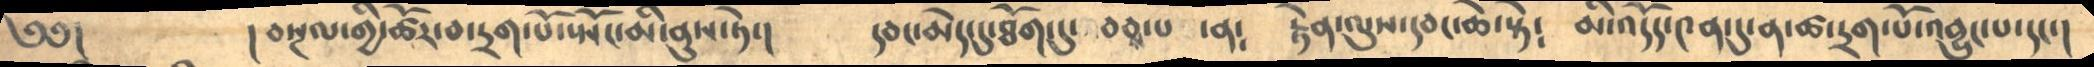༄༅།     ། བསྔལ་གྱི་ཚོར་བ་དྲག་པོ་སྤོང་མི་ནུས་ཏེ་།  དབང་མེད་དུ་ཐོག་དུ་བཅས་པ་ན༴  རྟེན་ལུས་དབང་ཆེ་སྟེ༴  མི་འདོད་༤ན་དུ་ན་ཚ་དྲག་པོ་འབྱུང་པ་དང་།
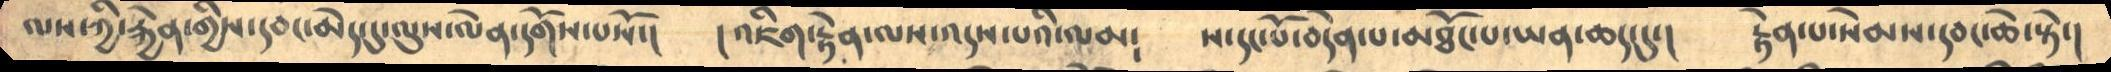ལས་ཀྱི་རྐྱེན་གྱིས་དབང་མེད་དུ་ལུས་ལེན་དགོས་པསོ་།    ། འཇིག་རྟེན་ལས་འདས་པའི་ལམ༴    ས་དང་པོ་བདེན་པ་མཐོང་པ་ཡན་ཆད་དུ་།    རྟེན་པ་སེམས་དབང་ཆེ་སྟེ་།
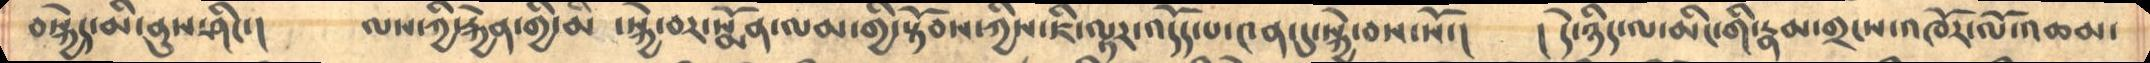བསྐྱེད་མི་ནུས་ཤིང་།      ལས་ཀྱི་རྐྱེན་གྱི་མི་སྐྱེ་བར་སྨོན་ལམ་གྱི་སྟོབས་ཀྱིས་ཇི་ལྟར་འདོད་པ་༤ན་དུ་སྐྱེ་བས་སོ་།   ། དེ་ཉིད་ལ་མིང་གི་རྣམ་གྲངས་འཁོར་ལོ་འཆམ་
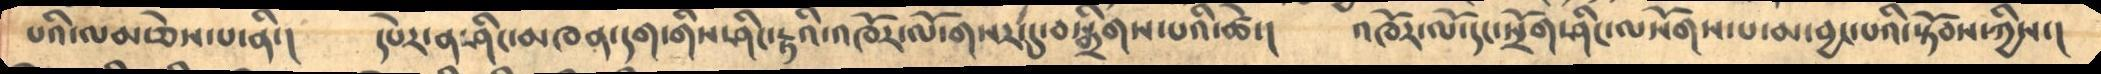པའི་ལམ་ཅེས་པ་ནི་།      དཔེར་ན་ཤིང་མཁན་དག་གིས་ཤིང་རྟའི་འཁོར་ལོ་གསར་དུ་བསྒྲིགས་པའི་ཚེ་།    འཁོར་ལོ་དང་སྲོག་ཤིང་ལསོགས་པ་མ་བྱང་པའི་སྟོབས་ཀྱིས་།
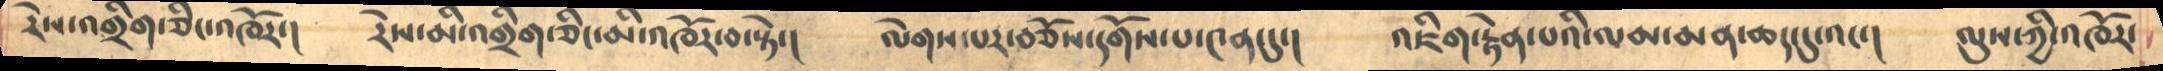རེས་འགྲིག་ཅིང་འཁོར་།    རེས་མི་འགྲིག་ཅིང་མི་འཁོར་བ་སྟེ་།     ལེགས་པར་བཅོས་དགོས་པ་༤ན་དུ་།     འཇིག་རྟེན་པའི་ལམ་མན་ཆད་དུ་འང་།   ལུས་ཀྱི་འཁོར་
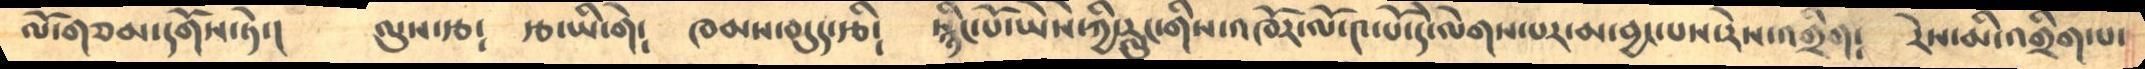ལོ་གཅམ་དགོས་ཏེ་།       ལུས་རྩ༴   རྩ་ཡི་གེ༴     ཁམས་བདུད་རྩི༴   སྙིང་པོ་ཡཻས་ཀྱི་རླུང་གིས་འཁོར་ལོ་༤་པོ་དེ་ལེགས་པར་མ་བྱང་པས་རེས་འགྲིག༴    རེས་མི་འགྲིག་པ་
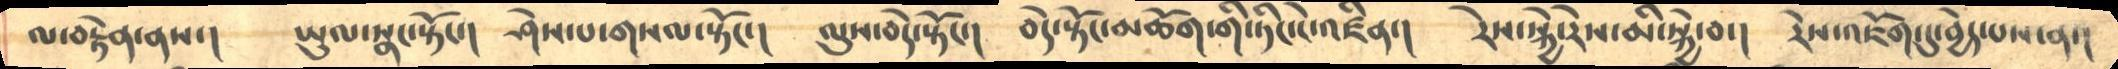ལ་བརྟེན་ནས་།     ཡུལ་སྣང་སྟོང་།     ཤེས་པ་གསལ་སྟོང་།    ལུས་བདེ་སྟོང་།     བདེ་སྟོང་མཆོག་གི་ཏིང་ངེ་འཛིན་།    རེས་སྐྱེ་རེས་མི་སྐྱེ་བ།   རེས་འཇོག་དུ་བྱེད་པས་ན་།
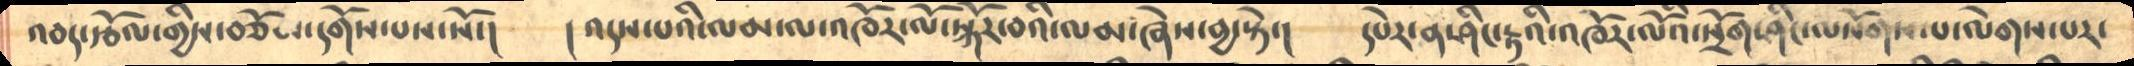འབད་རྩོལ་གྱིས་བཅོས་དགོས་པས་སོ་།      ། འདས་པའི་ལམ་ལ་འཁོར་ལོ་སྐོར་བའི་ལམ་ཞེས་བྱ་སྟེ་།    དཔེར་ན་ཤིང་རྟའི་འཁོར་ལོའི་སྲོག་ཤིང་ལསོགས་པ་ལེགས་པར་
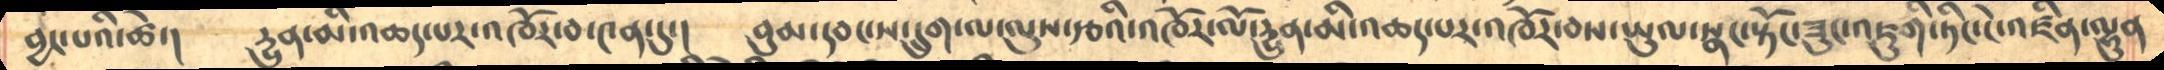བྱང་པའི་ཚེ་།     དྱུན་མི་འཆད་པར་འཁོར་བ་༤ན་དུ་།     བུམ་དབང་ས་དྲུག་ལ་ལུས་རྩའི་འཁོར་ལོ་དྱུན་མི་འཆད་པར་འཁོར་བས་ཡུལ་སྣང་སྟོང་ཟུང་འཇུགི་ཏིང་ངེ་འཛིན་ལྷུན
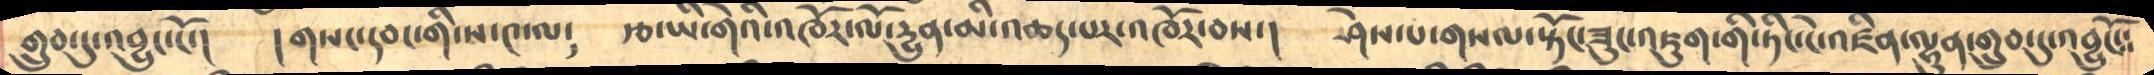གྲུབ་དུ་འབྱུང་ངོ་།     ། གསང་དབང་གི་ས་༤་ལ༴    རྩ་ཡི་གེའི་འཁོར་ལོ་དྱུན་མི་འཆད་པར་འཁོར་བས་།    ཤེས་པ་གསལ་སྟོང་ཟུང་འཇུག་གི་ཏིང་ངེ་འཛིན་ལྷུན་གྲུབ་དུ་འབྱུངོ༴༴
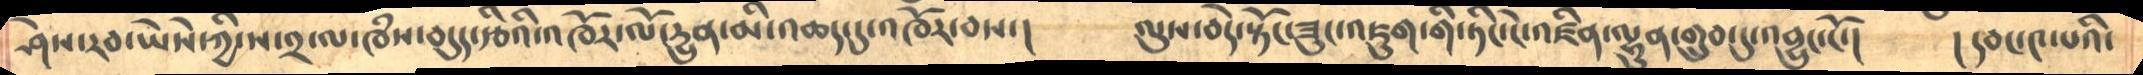ཤེས་རབ་ཡཻས་ཀྱི་ས་༢་ལ་ཁཾས་བདུད་རྩིའི་འཁོར་ལོ་དྱུན་མི་འཆད་དུ་འཁོར་བས་།    ལུས་བདེ་སྟོང་ཟུང་འཇུག་གི་ཏིང་ངེ་འཛིན་ལྷུན་གྲུབ་དུ་འབྱུང་ངོ་།     །དབང་༤་པའི་
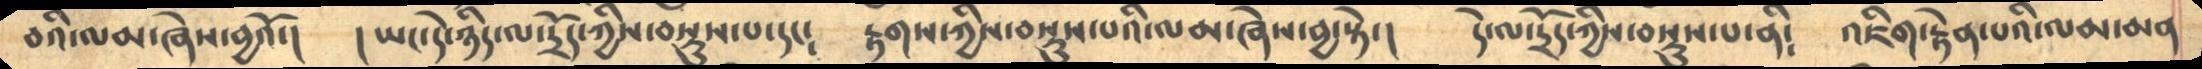བའི་ལམ་ཞེས་བྱའོ་།     ། ཡང་དེ་ཉིད་ལ་དྲོད་ཀྱིས་བསྡུས་པ་དང༴      རྟགས་ཀྱིས་བསྡུས་པའི་ལམ་ཞེས་བྱ་སྟེ་།   དེ་ལ་དྲོད་ཀྱིས་བསྡུས་པ་ནི༴    འཇིག་རྟེན་པའི་ལམ་མན
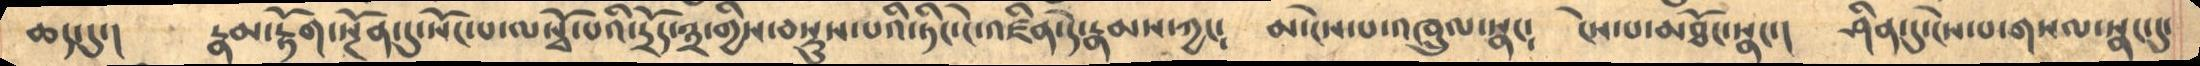ཆད་དུ་།     རྣམ་རྟོག་སྔོན་དུ་སོང་པ་ལསྭོ་པའི་དྲོད་༣་གྱིས་བསྡུས་པའི་ཏིང་ངེ་འཛིན་དེ་རྣམས་ཀྱང༴     མ་ངེས་པ་འཁྲུལ་སྣང༴  ངེས་པ་མཐོང་སྣང་།   ཤིན་དུ་ངེས་པ་གསལ་སྣང་དུ་
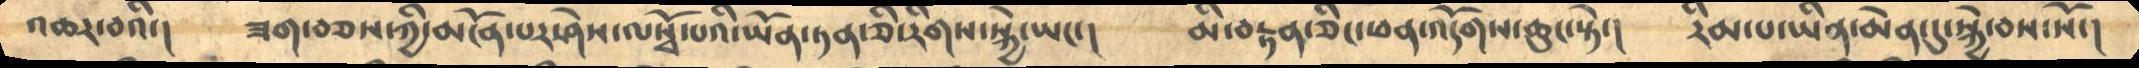འཆར་བའི་།   ཟག་བཅས་ཀྱི་མངོན་པར་ཤེས་ལསྭོ་པའི་ཡོན་ཏན་ཅི་རིགས་སྐྱེ་ཡང་།     མི་བརྟན་ཅིང་ཕན་འདོགས་ཆུང་སྟེ་།    རིམ་པ་ཡིན་མེན་དུ་སྐྱེ་བས་སོ་།
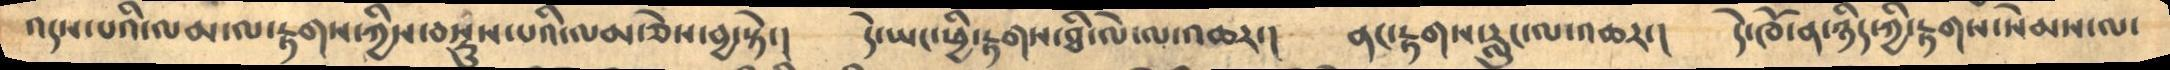འདས་པའི་ལམ་ལ་རྟགས་ཀྱིས་བསྡུས་པའི་ལམ་ཅེས་བྱ་སྟེ་།    དེ་ཡང་ཕྱི་རྟགས་ཐི་ལེ་ལ་འཆར་།   ནང་རྟགས་རླུང་ལ་འཆར་།    དེ་ཁོ་ན་ཉིད་ཀྱི་རྟགས་སེམས་ལ་
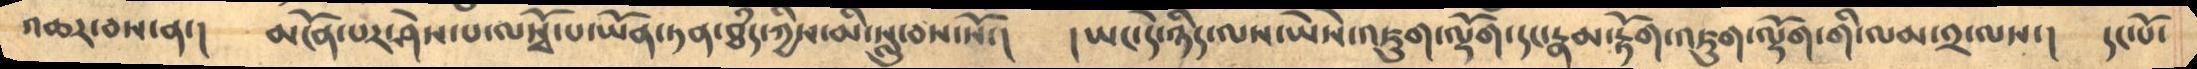འཆར་བས་ན་།    མངོན་པར་ཤེས་པ་ལསྭོ་པ་ཡོན་ཏན་ཐཾད་ཀྱིས་མི་སླུ་བས་སོ་།     །ཡང་དེ་ཉིད་ལས་ཡཻས་འཇུག་ལྡོག་དང་རྣམ་རྟོག་འཇུག་ལྡོག་གི་ལམ་༢་ལས་།   དང་པོ་
